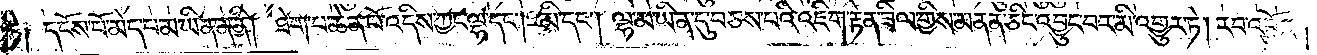ཏེ། དངོས་པོ་མེད་པ་མ་ཡིན་ན་ནི། ཐེག་པ་ཆེན་པོ་འདིས་ཀྱང་ལྷ་དང༌། མི་དང༌། ལྷ་མ་ཡིན་དུ་བཅས་པའི་འཇིག་རྟེན་ཟིལ་གྱིས་མནན་ཅིང་འབྱུང་བར་མི་འགྱུར་ཏེ། རབ་འབྱོར།
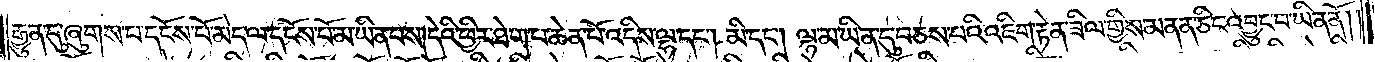རྒྱུན་དུ་ཞུགས་པ་དངོས་པོ་མེད་ལ་དངོས་པོ་མ་ཡིན་པས། དེའི་ཕྱིར་ཐེག་པ་ཆེན་པོ་འདིས་ལྷ་དང༌། མི་དང༌། ལྷ་མ་ཡིན་དུ་བཅས་པའི་འཇིག་རྟེན་ཟིལ་གྱིས་མནན་ཅིང་འབྱུང་བ་ཡིན་ནོ། །
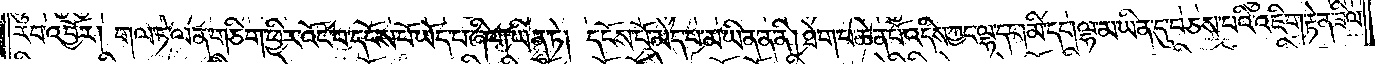རབ་འབྱོར། གལ་ཏེ་ལན་ཅིག་ཕྱིར་འོང་བ་དངོས་པོ་ཡོད་པ་ཞིག་ཡིན་ཏེ། དངོས་པོ་མེད་པ་མ་ཡིན་ན་ནི། ཐེག་པ་ཆེན་པོ་འདིས་ཀྱང་ལྷ་དང༌། མི་དང༌། ལྷ་མ་ཡིན་དུ་བཅས་པའི་འཇིག་རྟེན་ཟིལ་
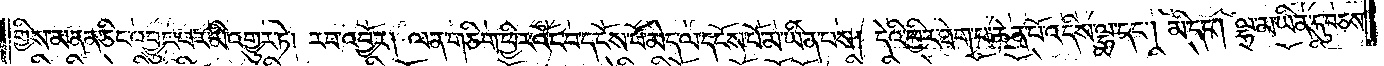གྱིས་མནན་ཅིང་འབྱུང་བར་མི་འགྱུར་ཏེ། རབ་འབྱོར། ལན་ཅིག་ཕྱིར་འོང་བ་དངོས་པོ་མེད་ལ་དངོས་པོ་མ་ཡིན་པས། དེའི་ཕྱིར་ཐེག་པ་ཆེན་པོ་འདིས་ལྷ་དང༌། མི་དང༌། ལྷ་མ་ཡིན་དུ་བཅས་
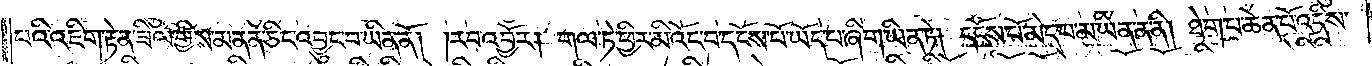པའི་འཇིག་རྟེན་ཟིལ་གྱིས་མནན་ཅིང་འབྱུང་བ་ཡིན་ནོ། །རབ་འབྱོར། གལ་ཏེ་ཕྱིར་མི་འོང་བ་དངོས་པོ་ཡོད་པ་ཞིག་ཡིན་ཏེ། དངོས་པོ་མེད་པ་མ་ཡིན་ན་ནི། ཐེག་པ་ཆེན་པོ་འདིས་
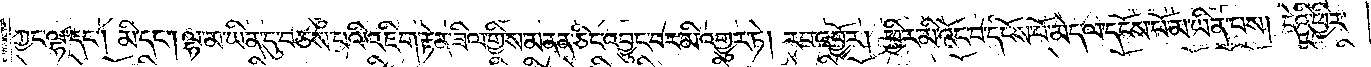ཀྱང་ལྷ་དང༌། མི་དང༌། ལྷ་མ་ཡིན་དུ་བཅས་པའི་འཇིག་རྟེན་ཟིལ་གྱིས་མནན་ཅིང་འབྱུང་བར་མི་འགྱུར་ཏེ། རབ་འབྱོར། ཕྱིར་མི་འོང་བ་དངོས་པོ་མེད་ལ་དངོས་པོ་མ་ཡིན་པས། དེའི་ཕྱིར་
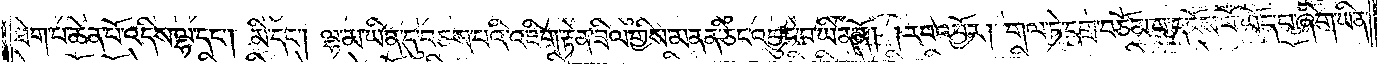ཐེག་པ་ཆེན་པོ་འདིས་ལྷ་དང༌། མི་དང༌། ལྷ་མ་ཡིན་དུ་བཅས་པའི་འཇིག་རྟེན་ཟིལ་གྱིས་མནན་ཅིང་འབྱུང་བ་ཡིན་ནོ་རབ་འབྱོར། གལ་ཏེ་དགྲ་བཅོམ་པ་དངོས་པོ་ཡོད་པ་ཞིག་ཡིན་
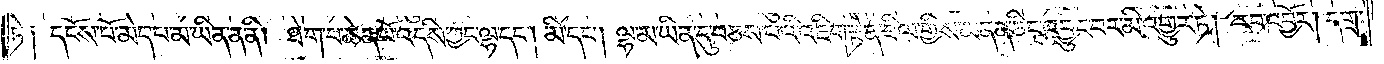ཏེ། དངོས་པོ་མེད་པ་མ་ཡིན་ན་ནི། ཐེག་པ་ཆེན་པོ་འདིས་ཀྱང་ལྷ་དང༌། མི་དང༌། ལྷ་མ་ཡིན་དུ་བཅས་པའི་འཇིག་རྟེན་ཟིལ་གྱིས་མནན་ཅིང་འབྱུང་བར་མི་འགྱུར་ཏེ། རབ་འབྱོར། དགྲ་
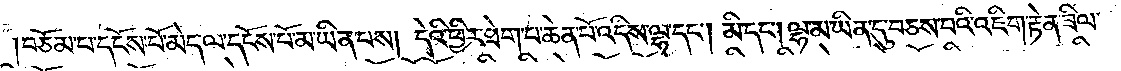བཅོམ་པ་དངོས་པོ་མེད་ལ་དངོས་པོ་མ་ཡིན་པས། དེའི་ཕྱིར་ཐེག་པ་ཆེན་པོ་འདིས་ལྷ་དང༌། མི་དང༌། ལྷ་མ་ཡིན་དུ་བཅས་པའི་འཇིག་རྟེན་ཟིལ་
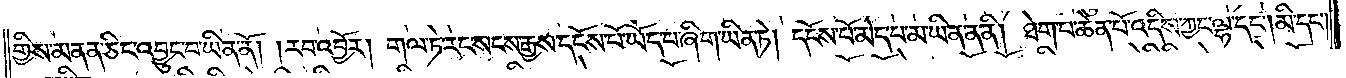གྱིས་མནན་ཅིང་འབྱུང་བ་ཡིན་ནོ། །རབ་འབྱོར། གལ་ཏེ་རང་སངས་རྒྱས་དངོས་པོ་ཡོད་པ་ཞིག་ཡིན་ཏེ། དངོས་པོ་མེད་པ་མ་ཡིན་ན་ནི། ཐེག་པ་ཆེན་པོ་འདིས་ཀྱང་ལྷ་དང༌། མི་དང༌།
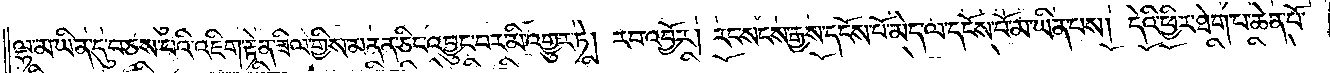ལྷ་མ་ཡིན་དུ་བཅས་པའི་འཇིག་རྟེན་ཟིལ་གྱིས་མནན་ཅིང་འབྱུང་བར་མི་འགྱུར་ཏེ། རབ་འབྱོར། རང་སངས་རྒྱས་དངོས་པོ་མེད་ལ་དངོས་པོ་མ་ཡིན་པས། དེའི་ཕྱིར་ཐེག་པ་ཆེན་པོ་
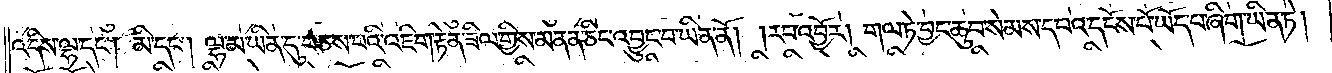འདིས་ལྷ་དང༌། མི་དང༌། ལྷ་མ་ཡིན་དུ་བཅས་པའི་འཇིག་རྟེན་ཟིལ་གྱིས་མནན་ཅིང་འབྱུང་བ་ཡིན་ནོ། །རབ་འབྱོར། གལ་ཏེ་བྱང་ཆུབ་སེམས་དཔའ་དངོས་པོ་ཡོད་པ་ཞིག་ཡིན་ཏེ།
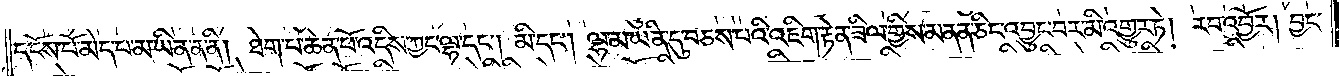དངོས་པོ་མེད་པ་མ་ཡིན་ན་ནི། ཐེག་པ་ཆེན་པོ་འདིས་ཀྱང་ལྷ་དང༌། མི་དང༌། ལྷ་མ་ཡིན་དུ་བཅས་པའི་འཇིག་རྟེན་ཟིལ་གྱིས་མནན་ཅིང་འབྱུང་བར་མི་འགྱུར་ཏེ། རབ་འབྱོར། བྱང་
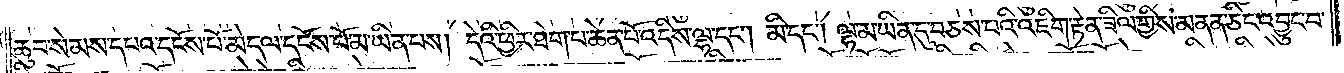ཆུབ་སེམས་དཔའ་དངོས་པོ་མེད་ལ་དངོས་པོ་མ་ཡིན་པས། དེའི་ཕྱིར་ཐེག་པ་ཆེན་པོ་འདིས་ལྷ་དང༌། མི་དང༌། ལྷ་མ་ཡིན་དུ་བཅས་པའི་འཇིག་རྟེན་ཟིལ་གྱིས་མནན་ཅིང་འབྱུང་བ་
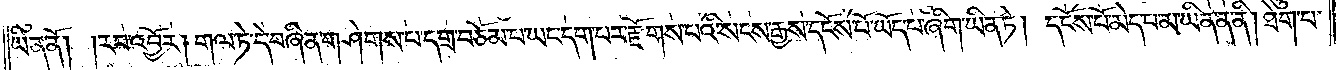ཡིན་ནོ། །རབ་འབྱོར། གལ་ཏེ་དེ་བཞིན་གཤེགས་པ་དགྲ་བཅོམ་པ་ཡང་དག་པར་རྫོགས་པའི་སངས་རྒྱས་དངོས་པོ་ཡོད་པ་ཞིག་ཡིན་ཏེ། དངོས་པོ་མེད་པ་མ་ཡིན་ན་ནི། ཐེག་པ་
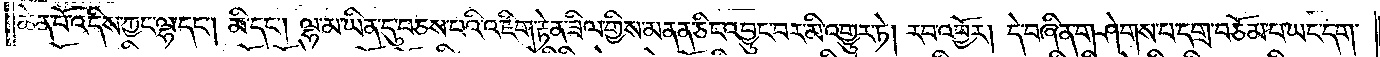ཆེན་པོ་འདིས་ཀྱང་ལྷ་དང༌། མི་དང༌། ལྷ་མ་ཡིན་དུ་བཅས་པའི་འཇིག་རྟེན་ཟིལ་གྱིས་མནན་ཅིང་འབྱུང་བར་མི་འགྱུར་ཏེ། རབ་འབྱོར། དེ་བཞིན་གཤེགས་པ་དགྲ་བཅོམ་པ་ཡང་དག་
